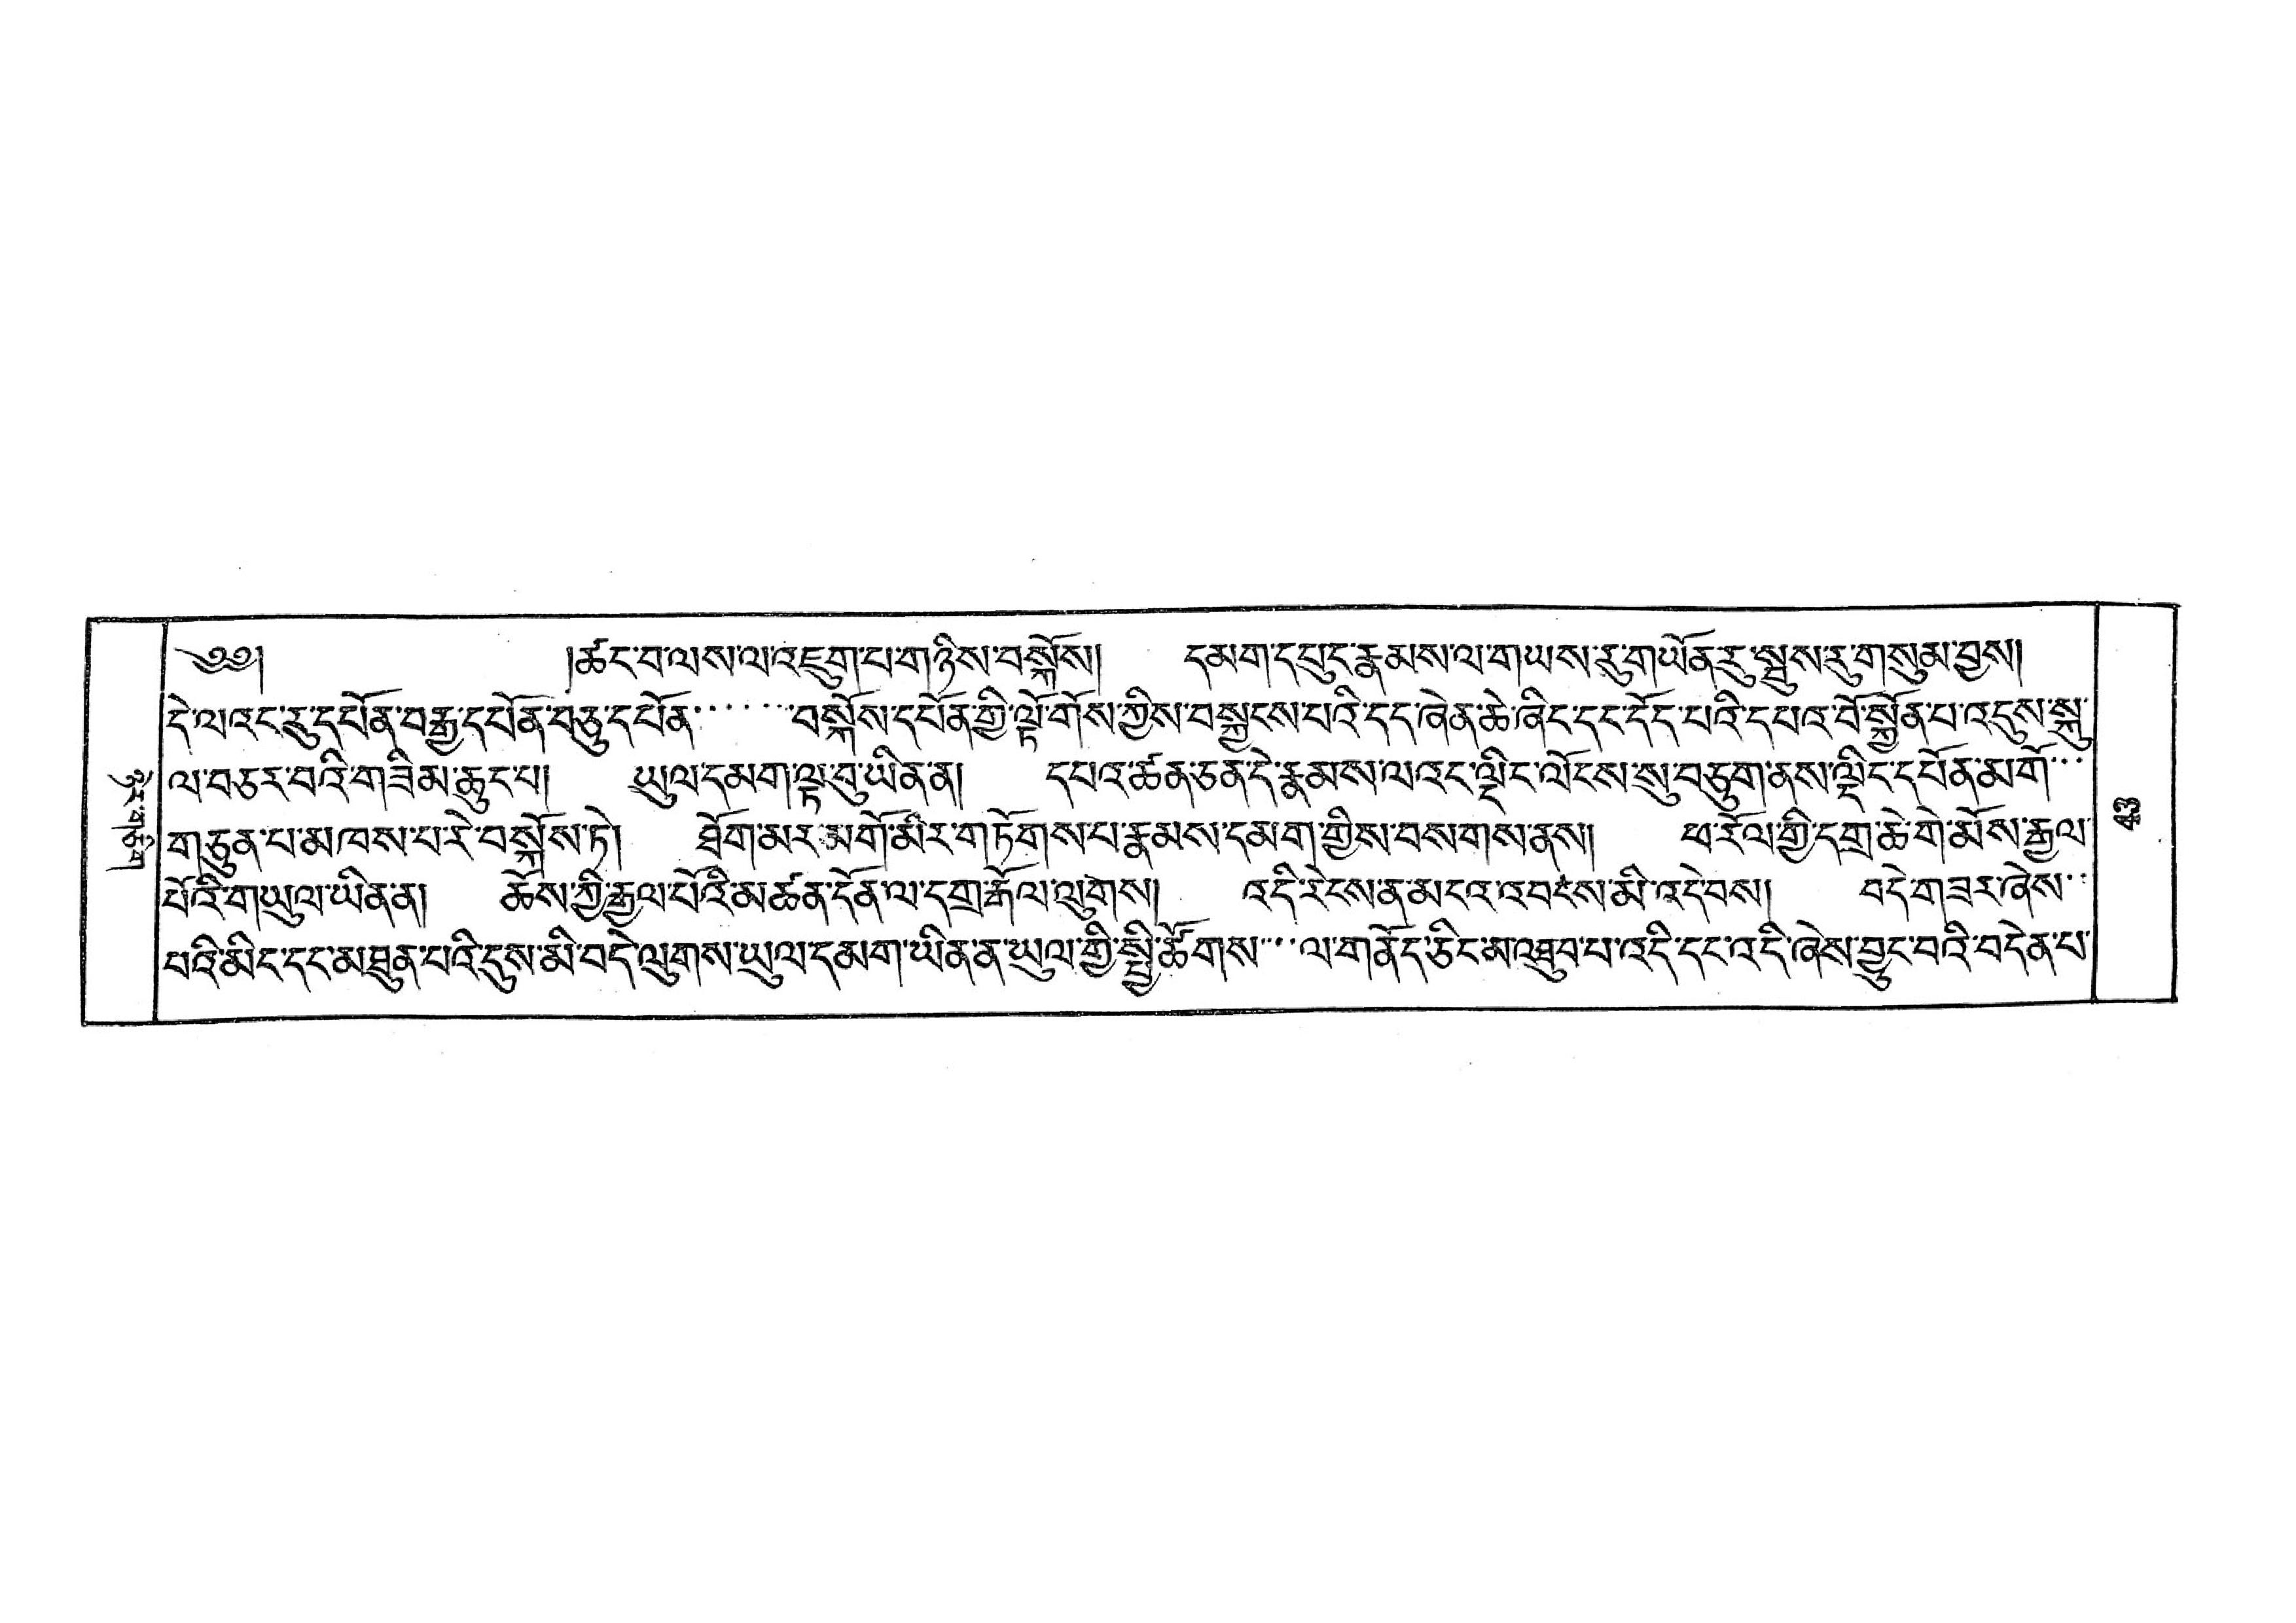ཉེར་གཅིག་
༄༅། །ཚང་པ་ལས་ལ་འཇུག་པ་གཉིས་བསྐོས། དམག་དཔུང་རྣམས་ལ་གཡས་རུ་གཡོན་རུ་སྦུས་རུ་གསུམ་བྱས།
དེ་ལའང་རུ་དཔོན་བརྒྱ་དཔོན་བཅུ་དཔོན་་་་བསྐོས་དཔོན་གྱི་ལྟོ་གོས་ཀྱིས་བསྐྱངས་པའི་དང་ཞེན་ཆེ་ཞིང་དང་དོད་པའི་དཔའ་བོ་སྐྱོན་པ་འདུས་སྐུ་
ལ་བཅར་བའི་གཟིམ་ཆུང་པ། ཡུལ་དམག་ལྟ་བུ་ཡིན་ན། དཔའ་ཚན་ཅན་དེ་རྣམས་ལའང་ལྡིང་ལོངས་སུ་བཅུག་ནས་ལྡིང་དཔོན་མགོ་་་
གཅུན་པ་མཁས་པ་རེ་བསྐོས་ཏེ། ཐོག་མར་མགོ་མིར་གཏོགས་པ་རྣམས་དམག་གྱིས་བསགས་ནས། ཕ་རོལ་གྱི་དགྲ་ཆེ་གེ་མོས་རྒྱལ་
པོའི་གཡུལ་ཡིན་ན། ཆོས་ཀྱི་རྒྱལ་པོའི་མཚན་དོན་ལ་དགྲ་རྒོལ་ལུགས། འདི་རེངས་ན་མངའ་འབངས་མི་འདེ་བས། བདེ་གཟར་ཞེས་་་
པའི་མིང་དང་མཐུན་པའི་དུས་མི་བདེ་ལུགས་ཡུལ་དམག་ཡིན་ན་ཡུལ་གྱི་སྤྱི་ཚོགས་་་་ལ་གནོད་ཅིང་མ་འཐུབ་པ་འདི་དང་འདི་ཞེས་བྱུང་བའི་བདེན་པ་
